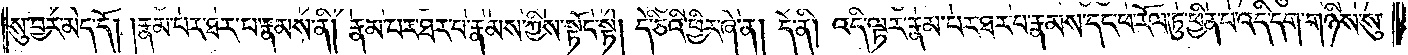སུ་བྱར་མེད་དོ། །རྣམ་པར་ཐར་པ་རྣམས་ནི། རྣམ་པར་ཐར་པ་རྣམས་ཀྱིས་སྟོང་སྟེ། དེ་ཅིའི་ཕྱིར་ཞེ་ན། དེ་ནི། འདི་ལྟར་རྣམ་པར་ཐར་པ་རྣམས་དང་ཕ་རོལ་ཏུ་ཕྱིན་པ་འདི་དག་གཉིས་སུ་
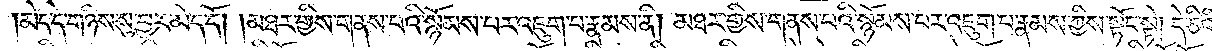མེད་དེ་གཉིས་སུ་བྱར་མེད་དོ། །མཐར་གྱིས་གནས་པའི་སྙོམས་པར་འཇུག་པ་རྣམས་ནི། མཐར་གྱིས་གནས་པའི་སྙོམས་པར་འཇུག་པ་རྣམས་ཀྱིས་སྟོང་སྟེ། དེ་ཅིའི་
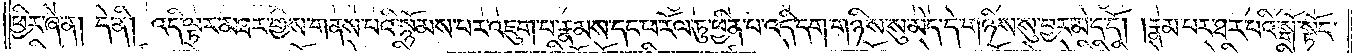ཕྱིར་ཞེ་ན། དེ་ནི། འདི་ལྟར་མཐར་གྱིས་གནས་པའི་སྙོམས་པར་འཇུག་པ་རྣམས་དང་ཕ་རོལ་ཏུ་ཕྱིན་པ་འདི་དག་གཉིས་སུ་མེད་དེ་གཉིས་སུ་བྱར་མེད་དོ། །རྣམ་པར་ཐར་པའི་སྒོ་སྟོང་
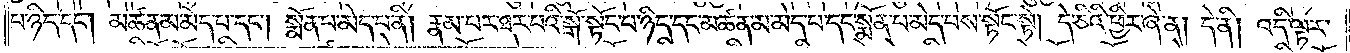པ་ཉིད་དང༌། མཚན་མ་མེད་པ་དང༌། སྨོན་པ་མེད་པ་ནི། རྣམ་པར་ཐར་པའི་སྒོ་སྟོང་པ་ཉིད་དང་མཚན་མ་མེད་པ་དང་སྨོན་པ་མེད་པས་སྟོང་སྟེ། དེ་ཅིའི་ཕྱིར་ཞེ་ན། དེ་ནི། འདི་ལྟར་
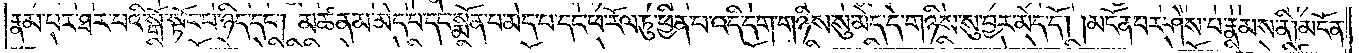རྣམ་པར་ཐར་པའི་སྒོ་སྟོང་པ་ཉིད་དང༌། མཚན་མ་མེད་པ་དང་སྨོན་པ་མེད་པ་དང་ཕ་རོལ་ཏུ་ཕྱིན་པ་འདི་དག་གཉིས་སུ་མེད་དེ་གཉིས་སུ་བྱར་མེད་དོ། །མངོན་པར་ཤེས་པ་རྣམས་ནི། མངོན་
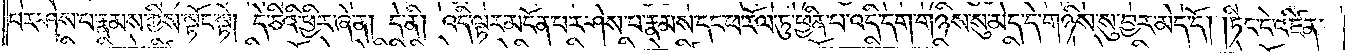པར་ཤེས་པ་རྣམས་ཀྱིས་སྟོང་སྟེ། དེ་ཅིའི་ཕྱིར་ཞེ་ན། དེ་ནི། འདི་ལྟར་མངོན་པར་ཤེས་པ་རྣམས་དང་ཕ་རོལ་ཏུ་ཕྱིན་པ་འདི་དག་གཉིས་སུ་མེད་དེ་གཉིས་སུ་བྱར་མེད་དོ། །ཏིང་ངེ་འཛིན་
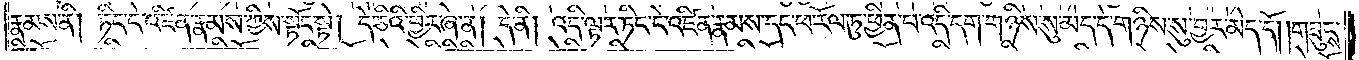རྣམས་ནི། ཏིང་ངེ་འཛིན་རྣམས་ཀྱིས་སྟོང་སྟེ། དེ་ཅིའི་ཕྱིར་ཞེ་ན། དེ་ནི། འདི་ལྟར་ཏིང་ངེ་འཛིན་རྣམས་དང་ཕ་རོལ་ཏུ་ཕྱིན་པ་འདི་དག་གཉིས་སུ་མེད་དེ་གཉིས་སུ་བྱར་མེད་དོ། །གཟུངས་
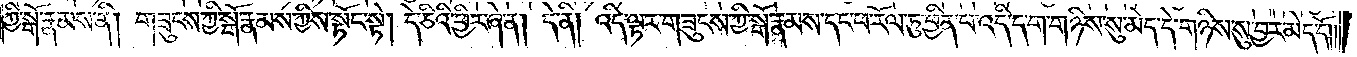ཀྱི་སྒོ་རྣམས་ནི། གཟུངས་ཀྱི་སྒོ་རྣམས་ཀྱིས་སྟོང་སྟེ། དེ་ཅིའི་ཕྱིར་ཞེ་ན། དེ་ནི། འདི་ལྟར་གཟུངས་ཀྱི་སྒོ་རྣམས་དང་ཕ་རོལ་ཏུ་ཕྱིན་པ་འདི་དག་གཉིས་སུ་མེད་དེ་གཉིས་སུ་བྱར་མེད་དོ། །
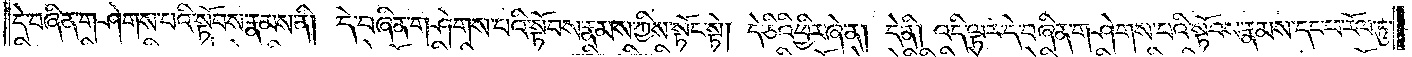དེ་བཞིན་གཤེགས་པའི་སྟོབས་རྣམས་ནི། དེ་བཞིན་གཤེགས་པའི་སྟོབས་རྣམས་ཀྱིས་སྟོང་སྟེ། དེ་ཅིའི་ཕྱིར་ཞེ་ན། དེ་ནི། འདི་ལྟར་དེ་བཞིན་གཤེགས་པའི་སྟོབས་རྣམས་དང་ཕ་རོལ་ཏུ་
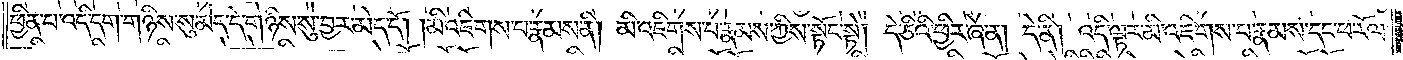ཕྱིན་པ་འདི་དག་གཉིས་སུ་མེད་དེ་གཉིས་སུ་བྱར་མེད་དོ། །མི་འཇིགས་པ་རྣམས་ནི། མི་འཇིགས་པ་རྣམས་ཀྱིས་སྟོང་སྟེ། དེ་ཅིའི་ཕྱིར་ཞེ་ན། དེ་ནི། འདི་ལྟར་མི་འཇིགས་པ་རྣམས་དང་ཕ་རོལ་
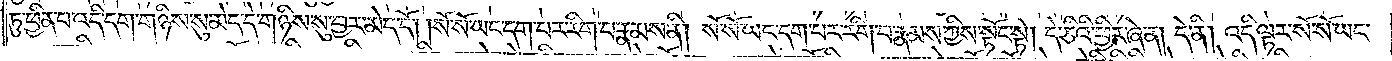ཏུ་ཕྱིན་པ་འདི་དག་གཉིས་སུ་མེད་དེ་གཉིས་སུ་བྱར་མེད་དོ། །སོ་སོ་ཡང་དག་པར་རིག་པ་རྣམས་ནི། སོ་སོ་ཡང་དག་པར་རིག་པ་རྣམས་ཀྱིས་སྟོང་སྟེ། དེ་ཅིའི་ཕྱིར་ཞེ་ན། དེ་ནི། འདི་ལྟར་སོ་སོ་ཡང་
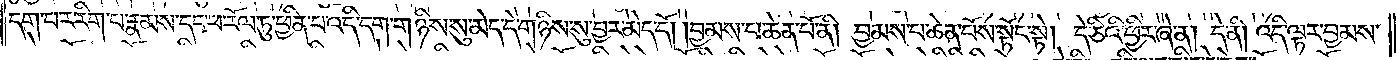དག་པར་རིག་པ་རྣམས་དང་ཕ་རོལ་ཏུ་ཕྱིན་པ་འདི་དག་གཉིས་སུ་མེད་དེ་གཉིས་སུ་བྱར་མེད་དོ། །བྱམས་པ་ཆེན་པོ་ནི། བྱམས་པ་ཆེན་པོས་སྟོང་སྟེ། དེ་ཅིའི་ཕྱིར་ཞེ་ན། དེ་ནི། འདི་ལྟར་བྱམས་
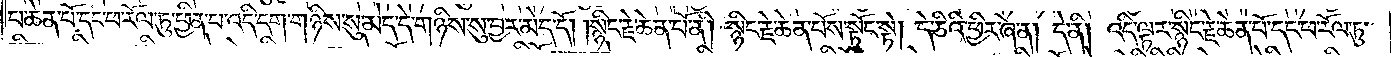པ་ཆེན་པོ་དང་ཕ་རོལ་ཏུ་ཕྱིན་པ་འདི་དག་གཉིས་སུ་མེད་དེ་གཉིས་སུ་བྱར་མེད་དོ། །སྙིང་རྗེ་ཆེན་པོ་ནི། སྙིང་རྗེ་ཆེན་པོས་སྟོང་སྟེ། དེ་ཅིའི་ཕྱིར་ཞེ་ན། དེ་ནི། འདི་ལྟར་སྙིང་རྗེ་ཆེན་པོ་དང་ཕ་རོལ་ཏུ་
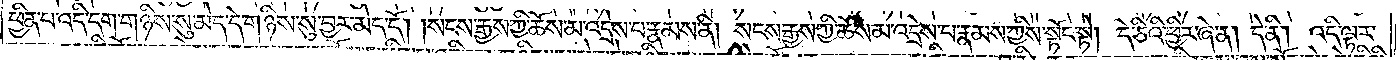ཕྱིན་པ་འདི་དག་གཉིས་སུ་མེད་དེ་གཉིས་སུ་བྱར་མེད་དོ། །སངས་རྒྱས་ཀྱི་ཆོས་མ་འདྲེས་པ་རྣམས་ནི། སངས་རྒྱས་ཀྱི་ཆོས་མ་འདྲེས་པ་རྣམས་ཀྱིས་སྟོང་སྟེ། དེ་ཅིའི་ཕྱིར་ཞེ་ན། དེ་ནི། འདི་ལྟར་
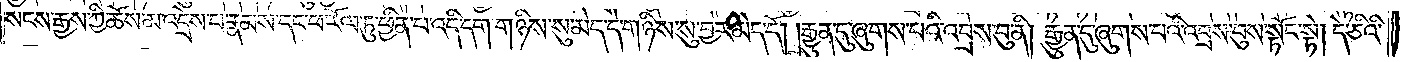སངས་རྒྱས་ཀྱི་ཆོས་མ་འདྲེས་པ་རྣམས་དང་ཕ་རོལ་ཏུ་ཕྱིན་པ་འདི་དག་གཉིས་སུ་མེད་དེ་གཉིས་སུ་བྱར་མེད་དོ། །རྒྱུན་དུ་ཞུགས་པའི་འབྲས་བུ་ནི། རྒྱུན་དུ་ཞུགས་པའི་འབྲས་བུས་སྟོང་སྟེ། དེ་ཅིའི་
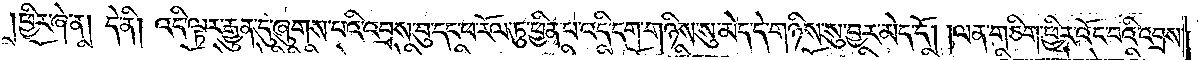ཕྱིར་ཞེ་ན། དེ་ནི། འདི་ལྟར་རྒྱུན་དུ་ཞུགས་པའི་འབྲས་བུ་དང་ཕ་རོལ་ཏུ་ཕྱིན་པ་འདི་དག་གཉིས་སུ་མེད་དེ་གཉིས་སུ་བྱར་མེད་དོ། །ལན་གཅིག་ཕྱིར་འོང་བའི་འབྲས་
